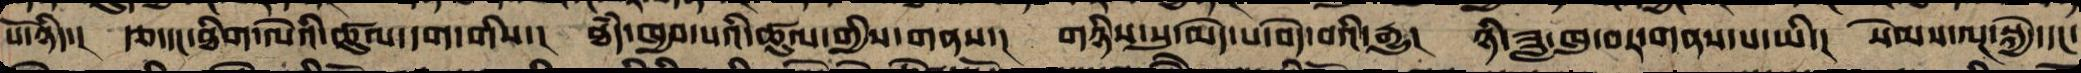པོ་ཉིད་། རྩ་དང་ཐིག་ལེའི་ཚུལ་དག་གིས་། ཐཾད་ཁྱབ་པའི་ཚུལ་གྱིས་གནས་། གཉིས་སུ་མེད་པ་བདེ་བའི་རྒྱུ་། ཉི་ཟླ་ཁུ་བར་གནས་པ་ཡི་། སེམས་ལྔ་སྐྱེ་དང་
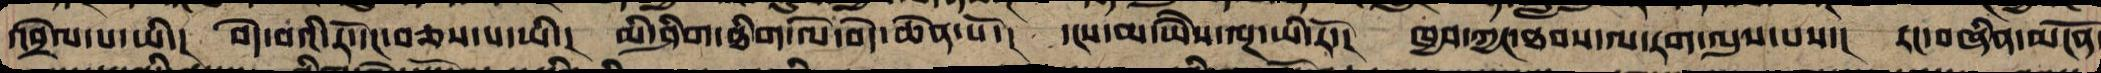འབྲེལ་བ་ཡི་། བདེ་བའི་རོ་དང་བཅས་པ་ཡི་། མི་ཤིག་ཐིག་ལེ་བདེ་ཆེན་པོ་། དངས་མ་ཡཻས་ལྔ་ཡི་རོ་། ཁྱབ་ཀྱང་ཐབས་ལ་རག་ལུས་པས་། རང་བཞིན་མངོན
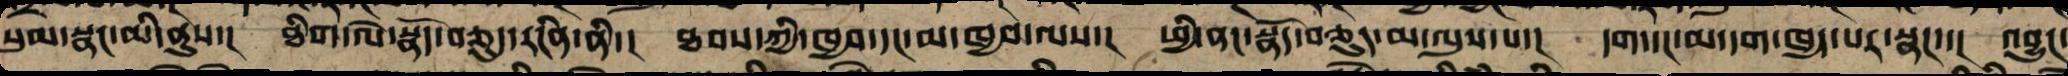སུམ་སྣང་མི་ནུས་། ཐིག་ལེ་སྣོད་བཅུད་རངིན་ནི་། ཐབས་ཀྱིས་ཁྱབ་དང་མ་ཁྱབ་ལས་། ཕྱི་ནང་སྣོད་བཅུད་མ་ལུས་པ་། དག་དང་མ་དག་ཁྱད་པར་སྣང་་། འབྱུང་
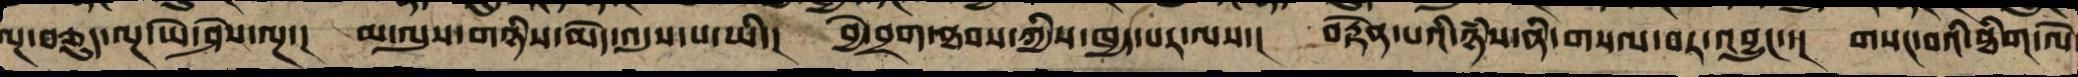ལྔ་བཅུད་ལྔ་ཡེ་ཤེས་ལྔ་། མ་ལུས་གཉིས་མེད་འདུས་པ་ཡི་། བྱེ་བྲག་ཐབས་ཀྱི་ཁྱད་པར་ལས་། བརྟེན་པའི་ཉཾས་ནི་གསལ་བར་འབྱུང་་། གསང་བའི་ཐིག་ལེ
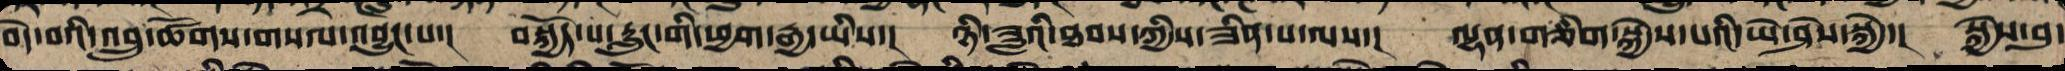བདེ་བའི་འབྲུ་ཚོགས་གསལ་འབྱུང་བ་། བསྐྱོད་པ་རླུང་གི་ཕྱག་རྒྱ་ཡིས་། ཉི་ཟླའི་ཐབས་ཀྱིས་ཟིན་པ་ལས་། ལྷན་ཅིག་སྐྱེས་པའི་ཡེ་ཤེས་སྐྱེ་། སྐྱེས་བུ་
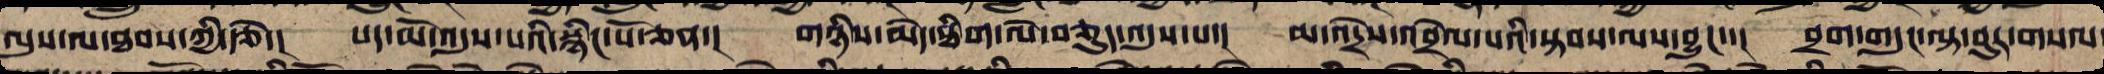ལུས་ལ་ཐབས་ཀྱི་རྩེ་། པད་མོ་འདུས་པའི་སྙིང་པོ་ཅན་། གཉིས་མེད་ཐིག་ལེ་བཅུད་འདུས་པ་། མ་འདྲེས་འབྲེལ་པའི་སྟབས་ལས་བྱུང་་། བྲག་གདུང་ལྟ་བུར་གསལ
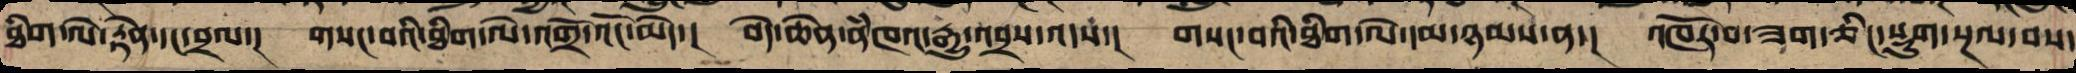ཐིག་ལེ་རྟེན་དང་བྲལ་། གསང་བའི་ཐིག་ལེ་འགྲོ་འོང་མེད་། བདེ་ཆེན་ནཾཁའ་རྒྱུ་འབྲས་འདས་། གསང་བའི་ཐིག་ལེ་དམ་ཉམས་ན་། འཁོར་བ་ཟག་ཅིང་སྡུག་བསྔལ་བས་
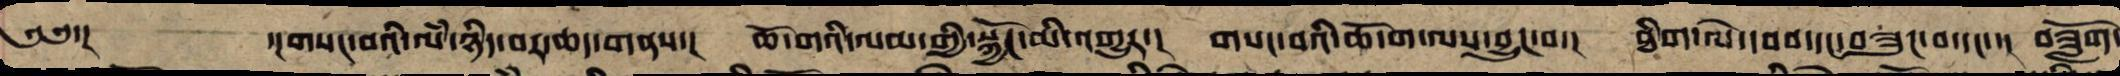༄༅་། ་།གསང་བའི་ལཾ་ཉིད་བར་ཆད་གནས་། ཆོ་གའི་ལམ་གྱིས་སྐྱོང་མི་འགྱུར་། གསང་བའི་ཆོ་ག་ལས་བྱུང་བ་། ཐིག་ལེ་དབབ་དང་བཟུང་བ་དང་་། བཟློག་
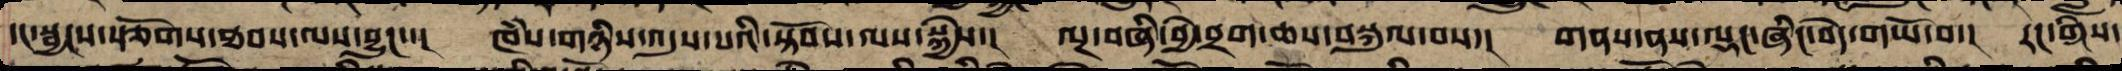དང་སྦྱངས་རྩོགས་ཐབས་ལས་བྱུང་་། ཁཾས་གཉིས་འདུས་པའི་སྟོབས་ལས་སྐྱེས་། ལྔ་བཞི་བྱེ་བྲག་ཆས་བསྐུལ་བས་། གནས་ནས་ལྡང་ཞིང་བདེ་གཡོ་བ་། རང་གིས་
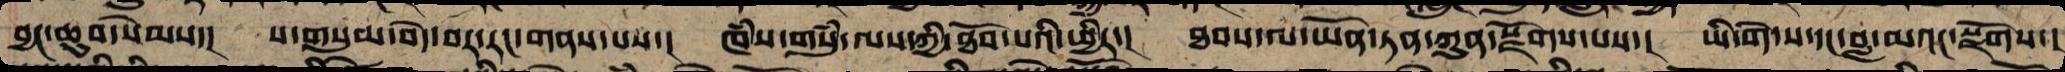བྱང་ཆུབ་སེམས་། ས་གསུམ་བདེ་བར་རང་གསལ་བས་། ཁཾས་གསུཾ་ལས་ཀྱིས་ཐོབ་པའི་ཕྱིར་། ཐབས་ལ་ཡོན་ཏན་ཀུན་སྫོགས་པས་། ཡི་གེ་ས་དང་བླ་མའང་སྫོགས་།
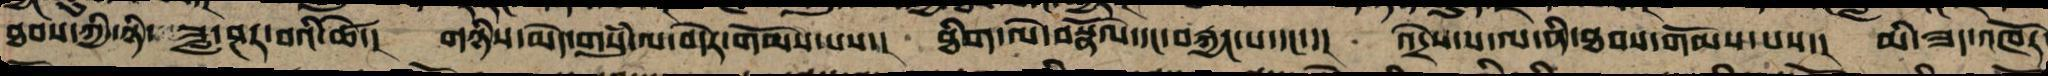ཐབས་ཀྱི་ཟླ་བ་ཤར་བའི་ཚེ་། གཉིས་མེད་གསུཾ་ལ་བདེར་གོམས་པས་། ཐིག་ལེ་བསྣོལ་དང་བརྐྱང་པ་དང་་། འདྲེས་པ་ལ་ནི་ཐབས་གོམས་པས་། མི་ཟད་འཁོར
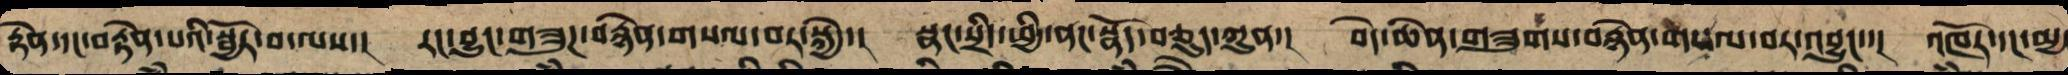རྟེན་དང་བརྟེན་པའི་སྦྱོར་བ་ལས་་། རང་བྱུང་གཟུཌ་བརྙེན་གསལ་བར་སྐྱེ་། སྣང་སྲིད་ཕྱི་ནང་སྣོད་བཅུད་ཀུན་། བདེ་ཆེན་གཟུགས་བརྙེན་གསལ་བར་འབྱུང་་། འཁོར་དང་མྱ
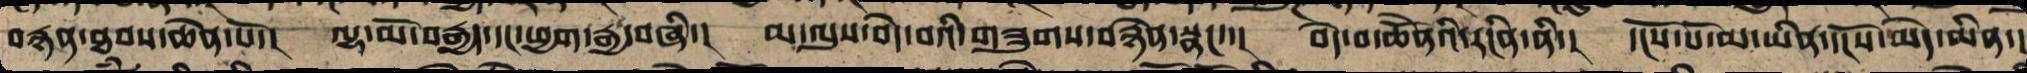བརྙན་ཐབས་ཆེན་པོ་། ལྷ་མོ་བརྒྱད་དང་ཕྱག་རྒྱ་བཞི་། མ་ལུས་བདེ་བའི་གཟུགས་བརྙེན་སྣང་་། བདེ་བ་ཆེནོའི་རངིན་ནི་། དངོས་པོ་མ་ཡིན་དངོས་མེད་མིན་།
